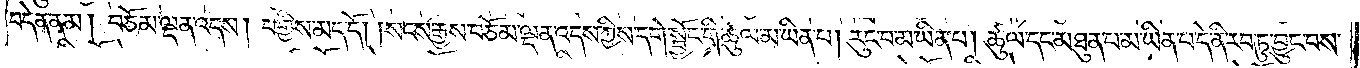བདེན་ནམ། བཅོམ་ལྡན་འདས། བགྱིས་མད་དོ། །སངས་རྒྱས་བཅོམ་ལྡན་འདས་ཀྱིས་དགེ་སྦྱོང་གི་ཚུལ་མ་ཡིན་པ། རུང་བ་མ་ཡིན་པ། ཚུལ་དང་མཐུན་པ་མ་ཡིན་པ་དེ་ནི་རབ་ཏུ་བྱུང་བས་
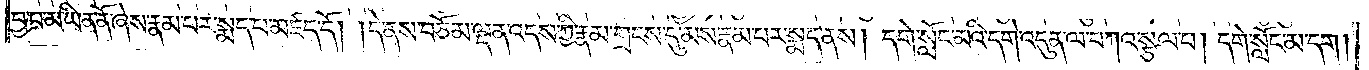བྱ་བ་མ་ཡིན་ནོ་ཞེས་རྣམ་པར་སྨད་པ་མཛད་དོ། །དེ་ནས་བཅོམ་ལྡན་འདས་ཀྱི་རྣམ་གྲངས་དུ་མས་རྣམ་པར་སྨད་ནས། དགེ་སློང་མའི་དགེ་འདུན་ལ་བཀའ་སྩལ་པ། དགེ་སློང་མ་དག།
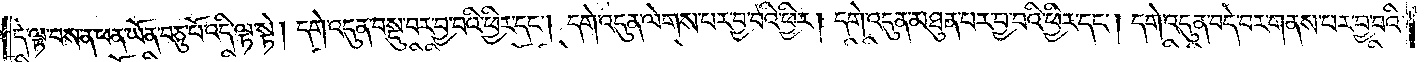དེ་ལྟ་བས་ན་ཕན་ཡོན་བཅུ་པོ་འདི་ལྟ་སྟེ། དགེ་འདུན་བསྡུ་བར་བྱ་བའི་ཕྱིར་དང༌། དགེ་འདུན་ལེགས་པར་བྱ་བའི་ཕྱིར། དགེ་འདུན་མཐུན་པར་བྱ་བའི་ཕྱིར་དང༌། དགེ་འདུན་བདེ་བར་གནས་པར་བྱ་བའི་
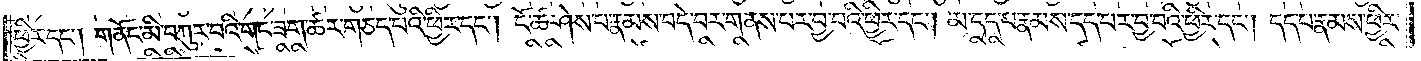ཕྱིར་དང༌། གནོང་མི་བཀུར་བའི་གང་ཟག་ཚར་གཅད་པའི་ཕྱིར་དང༌། ངོ་ཚ་ཤེས་པ་རྣམས་བདེ་བར་གནས་པར་བྱ་བའི་ཕྱིར་དང༌། མ་དད་པ་རྣམས་དད་པར་བྱ་བའི་ཕྱིར་དང༌། དད་པ་རྣམས་ཕྱིར་
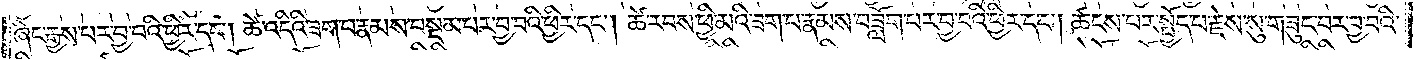ཞིང་རྒྱས་པར་བྱ་བའི་ཕྱིར་དང༌། ཚེ་འདིའི་ཟག་པ་རྣམས་བསྡམ་པར་བྱ་བའི་ཕྱིར་དང༌། ཚེ་རབས་ཕྱི་མའི་ཟག་པ་རྣམས་བཟློག་པར་བྱ་བའི་ཕྱིར་དང༌། ཚངས་པར་སྤྱོད་པ་རྗེས་སུ་གཟུང་བར་བྱ་བའི་
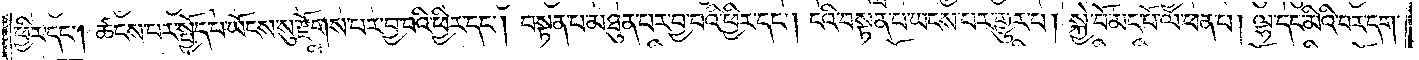ཕྱིར་དང༌། ཚངས་པར་སྤྱོད་པ་ཡོངས་སུ་རྫོགས་པར་བྱ་བའི་ཕྱིར་དང༌། བསྟན་པ་མཐུན་པར་བྱ་བའི་ཕྱིར་དང༌། ངའི་བསྟན་པ་ཡངས་པར་གྱུར་པ། སྐྱེ་བོ་མང་པོ་ལ་ཕན་པ། ལྷ་དང་མིའི་བར་དག་
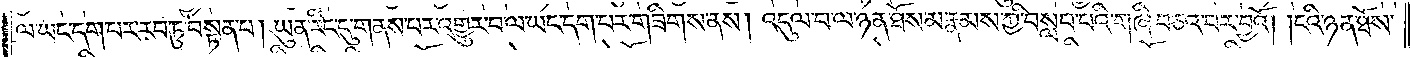ལ་ཡང་དག་པར་རབ་ཏུ་བསྟན་པ། ཡུན་རིང་དུ་གནས་པར་འགྱུར་བ་ལ་ཡང་དག་པར་གཟིགས་ནས། འདུལ་བ་ལ་ཉན་ཐོས་མ་རྣམས་ཀྱི་བསླབ་པའི་གཞི་བཅའ་བར་བྱའོ། །ངའི་ཉན་ཐོས་
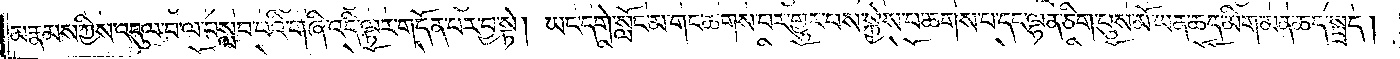མ་རྣམས་ཀྱིས་འདུལ་བ་ལ་བསླབ་པའི་གཞི་འདི་ལྟར་གདོན་པར་བྱ་སྟེ། ཡང་དགེ་སློང་མ་གང་ཆགས་པར་གྱུར་པས་སྐྱེས་པ་ཆགས་པ་དང་ལྷན་ཅིག་པུས་མོ་ཡན་ཆད་མིག་མན་ཆད་སྤྲད།
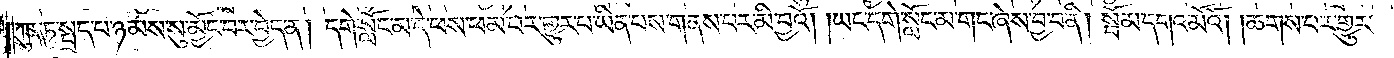ཀུན་ཏུ་སྤྲད་པ་ཉམས་སུ་མྱོང་བར་བྱེད་ན། དགེ་སློང་མ་དེ་ཕས་ཕམ་པར་གྱུར་པ་ཡིན་པས་གནས་པར་མི་བྱའོ། །ཡང་དགེ་སློང་མ་གང་ཞེས་བྱ་བ་ནི། སྦོམ་དགའ་མོའོ། །ཆགས་པར་གྱུར་
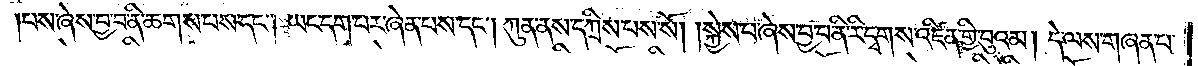།པས་ཞེས་བྱ་བ་ནི་ཆགས་པས་དང༌། ཡང་དག་པར་ཞེན་པས་དང༌། ཀུན་ནས་དཀྲིས་པས་སོ། །སྐྱེས་པ་ཞེས་བྱ་བ་ནི་རི་དྭགས་འཛིན་གྱི་བུའམ། དེ་ལས་གཞན་པ་
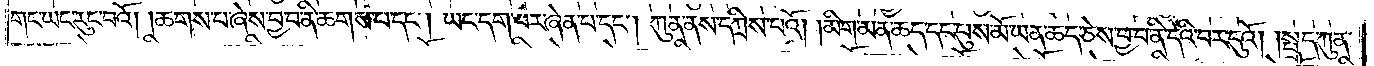གང་ཡང་རུང་བའོ། །ཆགས་པ་ཞེས་བྱ་བ་ནི་ཆགས་པ་དང༌། ཡང་དག་པར་ཞེན་པ་དང༌། ཀུན་ནས་དཀྲིས་པའོ། །མིག་མན་ཆད་དང་པུས་མོ་ཡན་ཆད་ཅེས་བྱ་བ་ནི་དེའི་བར་དུའོ། །སྤྲད་ཀུན་
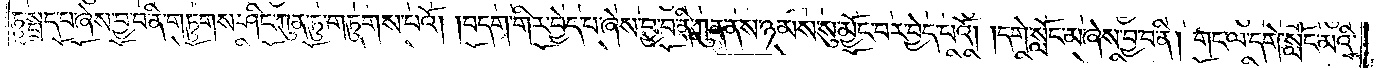ཏུ་སྤྲད་པ་ཞེས་བྱ་བ་ནི་གཏུགས་ཤིང་ཀུན་ཏུ་གཏུགས་པའོ། །བདག་གིར་བྱེད་པ་ཞེས་བྱ་བ་ནི་ཀུན་ནས་ཉམས་སུ་མྱོང་བར་བྱེད་པའོ། །དགེ་སློང་མ་ཞེས་བྱ་བ་ནི། གང་ལ་དགེ་སློང་མའི་
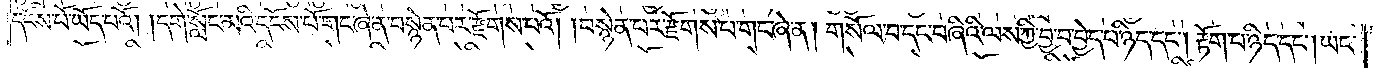དངོས་པོ་ཡོད་པའོ། །དགེ་སློང་མའི་དངོས་པོ་གང་ཞེ་ན་བསྙེན་པར་རྫོགས་པའོ། །བསྙེན་པར་རྫོགས་པ་གང་ཞེ་ན། གསོལ་བ་དང་བཞིའི་ལས་ཀྱི་བྱ་བ་བྱེད་པ་ཉིད་དང༌། རྟོག་པ་ཉིད་དང༌། ཡང་
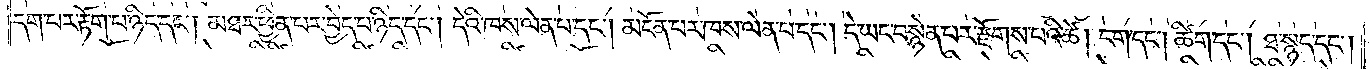དག་པར་རྟོག་པ་ཉིད་དང༌། མཐར་ཕྱིན་པར་བྱེད་པ་ཉིད་དང༌། དེའི་ཁས་ལེན་པ་དང༌། མངོན་པར་ཁས་ལེན་པ་དང༌། དེ་ཡང་བསྙེན་པར་རྫོགས་པའི་ཚེ། ངག་དང༌། ཚིག་དང༌། ཐ་སྙད་དང༌།
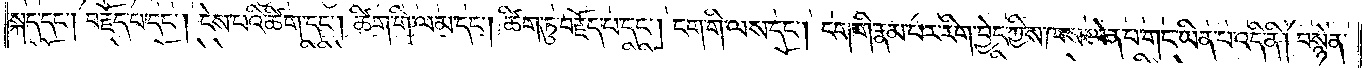སྐད་དང༌། བརྗོད་པ་དང༌། ངེས་པའི་ཚིག་དང༌། ཚིག་གི་ལམ་དང༌། ཚིག་ཏུ་བརྗོད་པ་དང༌། ངག་གི་ལས་དང༌། ངག་གི་རྣམ་པར་རིག་བྱེད་ཀྱིས་ཁས་ལེན་པ་གང་ཡིན་པ་འདི་ནི། བསྙེན་
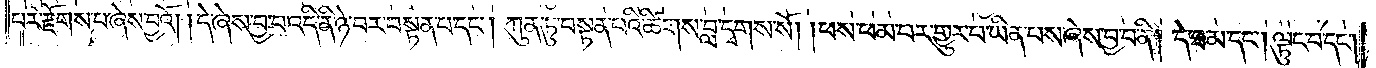པར་རྫོགས་པ་ཞེས་བྱའོ། །དེ་ཞེས་བྱ་བ་འདི་ནི་ཉེ་བར་བསྟན་པ་དང༌། ཀུན་ཏུ་བསྟན་པའི་ཚིགས་བླ་དྭགས་སོ། །ཕས་ཕམ་པར་གྱུར་པ་ཡིན་པས་ཞེས་བྱ་བ་ནི། དེ་ཐ་མ་དང༌། ལྟུང་བ་དང༌།
